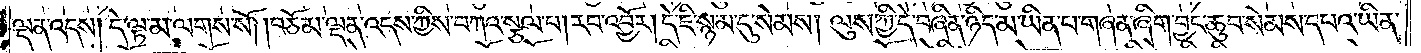ལྡན་འདས། དེ་ལྟ་མ་ལགས་སོ། །བཅོམ་ལྡན་འདས་ཀྱིས་བཀའ་སྩལ་པ། རབ་འབྱོར། དེ་ཇི་སྙམ་དུ་སེམས། ལུས་ཀྱི་དེ་བཞིན་ཉིད་མ་ཡིན་པ་གཞན་ཞིག་བྱང་ཆུབ་སེམས་དཔའ་ཡིན་
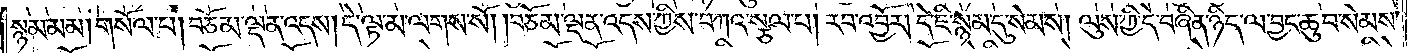སྙམ་མམ༑ གསོལ་པ། བཅོམ་ལྡན་འདས། དེ་ལྟ་མ་ལགས་སོ། །བཅོམ་ལྡན་འདས་ཀྱིས་བཀའ་སྩལ་པ། རབ་འབྱོར། དེ་ཇི་སྙམ་དུ་སེམས། ལུས་ཀྱི་དེ་བཞིན་ཉིད་ལ་བྱང་ཆུབ་སེམས་
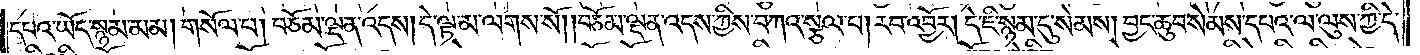དཔའ་ཡོད་སྙམ་མམ། གསོལ་པ། བཅོམ་ལྡན་འདས། དེ་ལྟ་མ་ལགས་སོ། །བཅོམ་ལྡན་འདས་ཀྱིས་བཀའ་སྩལ་པ། རབ་འབྱོར། དེ་ཇི་སྙམ་དུ་སེམས། བྱང་ཆུབ་སེམས་དཔའ་ལ་ལུས་ཀྱི་དེ་
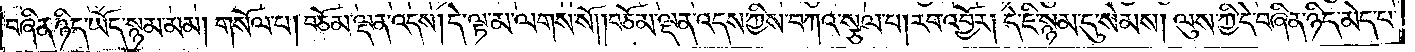བཞིན་ཉིད་ཡོད་སྙམ་མམ། གསོལ་པ། བཅོམ་ལྡན་འདས། དེ་ལྟ་མ་ལགས་སོ། །བཅོམ་ལྡན་འདས་ཀྱིས་བཀའ་སྩལ་པ། རབ་འབྱོར། དེ་ཇི་སྙམ་དུ་སེམས། ལུས་ཀྱི་དེ་བཞིན་ཉིད་མེད་པ་
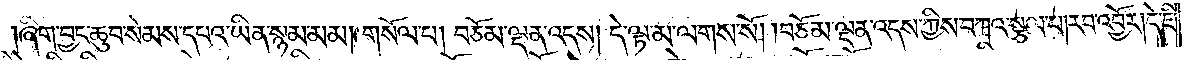ཞིག་བྱང་ཆུབ་སེམས་དཔའ་ཡིན་སྙམ་མམ། གསོལ་པ། བཅོམ་ལྡན་འདས། དེ་ལྟ་མ་ལགས་སོ། །བཅོམ་ལྡན་འདས་ཀྱིས་བཀའ་སྩལ་པ། རབ་འབྱོར། དེ་ཇི་
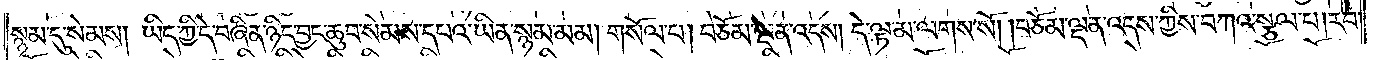སྙམ་དུ་སེམས། ཡིད་ཀྱི་དེ་བཞིན་ཉིད་བྱང་ཆུབ་སེམས་དཔའ་ཡིན་སྙམ་མམ། གསོལ་པ། བཅོམ་ལྡན་འདས། དེ་ལྟ་མ་ལགས་སོ། །བཅོམ་ལྡན་འདས་ཀྱིས་བཀའ་སྩལ་པ། རབ་
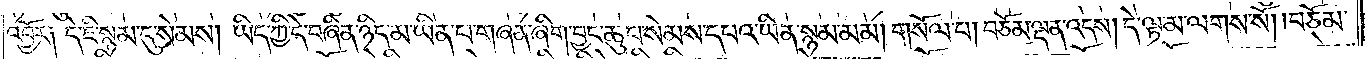འབྱོར༑ དེ་ཇི་སྙམ་དུ་སེམས། ཡིད་ཀྱི་དེ་བཞིན་ཉིད་མ་ཡིན་པ་གཞན་ཞིག་བྱང་ཆུབ་སེམས་དཔའ་ཡིན་སྙམ་མམ། གསོལ་པ། བཅོམ་ལྡན་འདས། དེ་ལྟ་མ་ལགས་སོ། །བཅོམ་
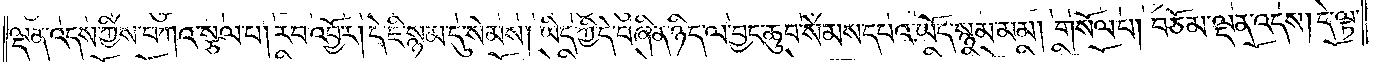ལྡན་འདས་ཀྱིས་བཀའ་སྩལ་པ། རབ་འབྱོར། དེ་ཇི་སྙམ་དུ་སེམས། ཡིད་ཀྱི་དེ་བཞིན་ཉིད་ལ་བྱང་ཆུབ་སེམས་དཔའ་ཡོད་སྙམ་མམ། གསོལ་པ། བཅོམ་ལྡན་འདས། དེ་ལྟ་
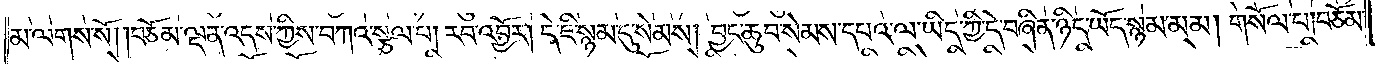མ་ལགས་སོ། །བཅོམ་ལྡན་འདས་ཀྱིས་བཀའ་སྩལ་པ། རབ་འབྱོར། དེ་ཇི་སྙམ་དུ་སེམས། བྱང་ཆུབ་སེམས་དཔའ་ལ་ཡིད་ཀྱི་དེ་བཞིན་ཉིད་ཡོད་སྙམ་མམ། གསོལ་པ། བཅོམ་
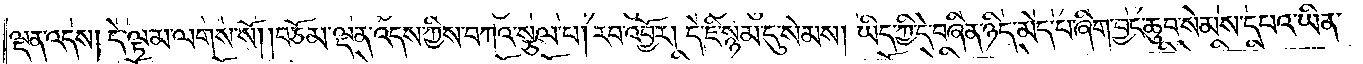ལྡན་འདས། དེ་ལྟ་མ་ལགས་སོ། །བཅོམ་ལྡན་འདས་ཀྱིས་བཀའ་སྩལ་པ། རབ་འབྱོར། དེ་ཇི་སྙམ་དུ་སེམས། ཡིད་ཀྱི་དེ་བཞིན་ཉིད་མེད་པ་ཞིག་བྱང་ཆུབ་སེམས་དཔའ་ཡིན་
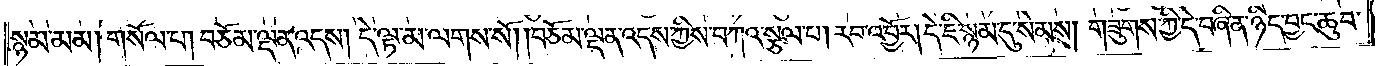སྙམ་མམ། གསོལ་པ། བཅོམ་ལྡན་འདས། དེ་ལྟ་མ་ལགས་སོ། །བཅོམ་ལྡན་འདས་ཀྱིས་བཀའ་སྩལ་པ། རབ་འབྱོར། དེ་ཇི་སྙམ་དུ་སེམས། གཟུགས་ཀྱི་དེ་བཞིན་ཉིད་བྱང་ཆུབ་
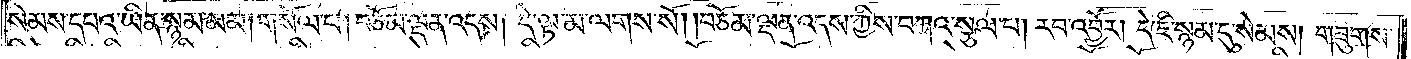སེམས་དཔའ་ཡིན་སྙམ་མམ། གསོལ་པ། བཅོམ་ལྡན་འདས། དེ་ལྟ་མ་ལགས་སོ། །བཅོམ་ལྡན་འདས་ཀྱིས་བཀའ་སྩལ་པ། རབ་འབྱོར། དེ་ཇི་སྙམ་དུ་སེམས། གཟུགས་
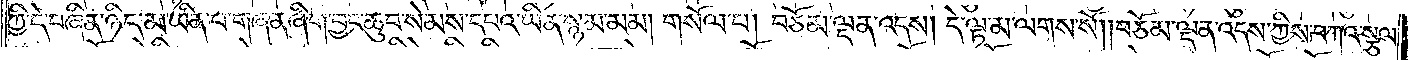ཀྱི་དེ་བཞིན་ཉིད་མ་ཡིན་པ་གཞན་ཞིག་བྱང་ཆུབ་སེམས་དཔའ་ཡིན་སྙམ་མམ། གསོལ་པ། བཅོམ་ལྡན་འདས། དེ་ལྟ་མ་ལགས་སོ། །བཅོམ་ལྡན་འདས་ཀྱིས་བཀའ་སྩལ་
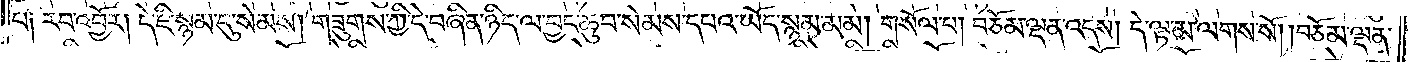པ། རབ་འབྱོར། དེ་ཇི་སྙམ་དུ་སེམས། གཟུགས་ཀྱི་དེ་བཞིན་ཉིད་ལ་བྱང་ཆུབ་སེམས་དཔའ་ཡོད་སྙམ་མམ། གསོལ་པ། བཅོམ་ལྡན་འདས། དེ་ལྟ་མ་ལགས་སོ། །བཅོམ་ལྡན་
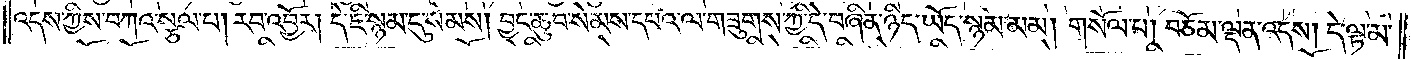འདས་ཀྱིས་བཀའ་སྩལ་པ། རབ་འབྱོར། དེ་ཇི་སྙམ་དུ་སེམས། བྱང་ཆུབ་སེམས་དཔའ་ལ་གཟུགས་ཀྱི་དེ་བཞིན་ཉིད་ཡོད་སྙམ་མམ། གསོལ་པ། བཅོམ་ལྡན་འདས། དེ་ལྟ་མ་
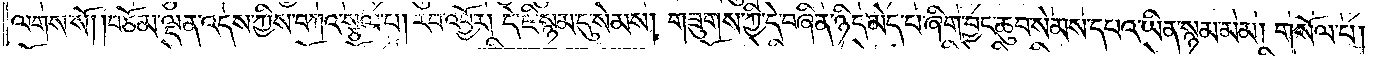ལགས་སོ། །བཅོམ་ལྡན་འདས་ཀྱིས་བཀའ་སྩལ་པ། རབ་འབྱོར། དེ་ཇི་སྙམ་དུ་སེམས། གཟུགས་ཀྱི་དེ་བཞིན་ཉིད་མེད་པ་ཞིག་བྱང་ཆུབ་སེམས་དཔའ་ཡིན་སྙམ་མམ། གསོལ་པ།
